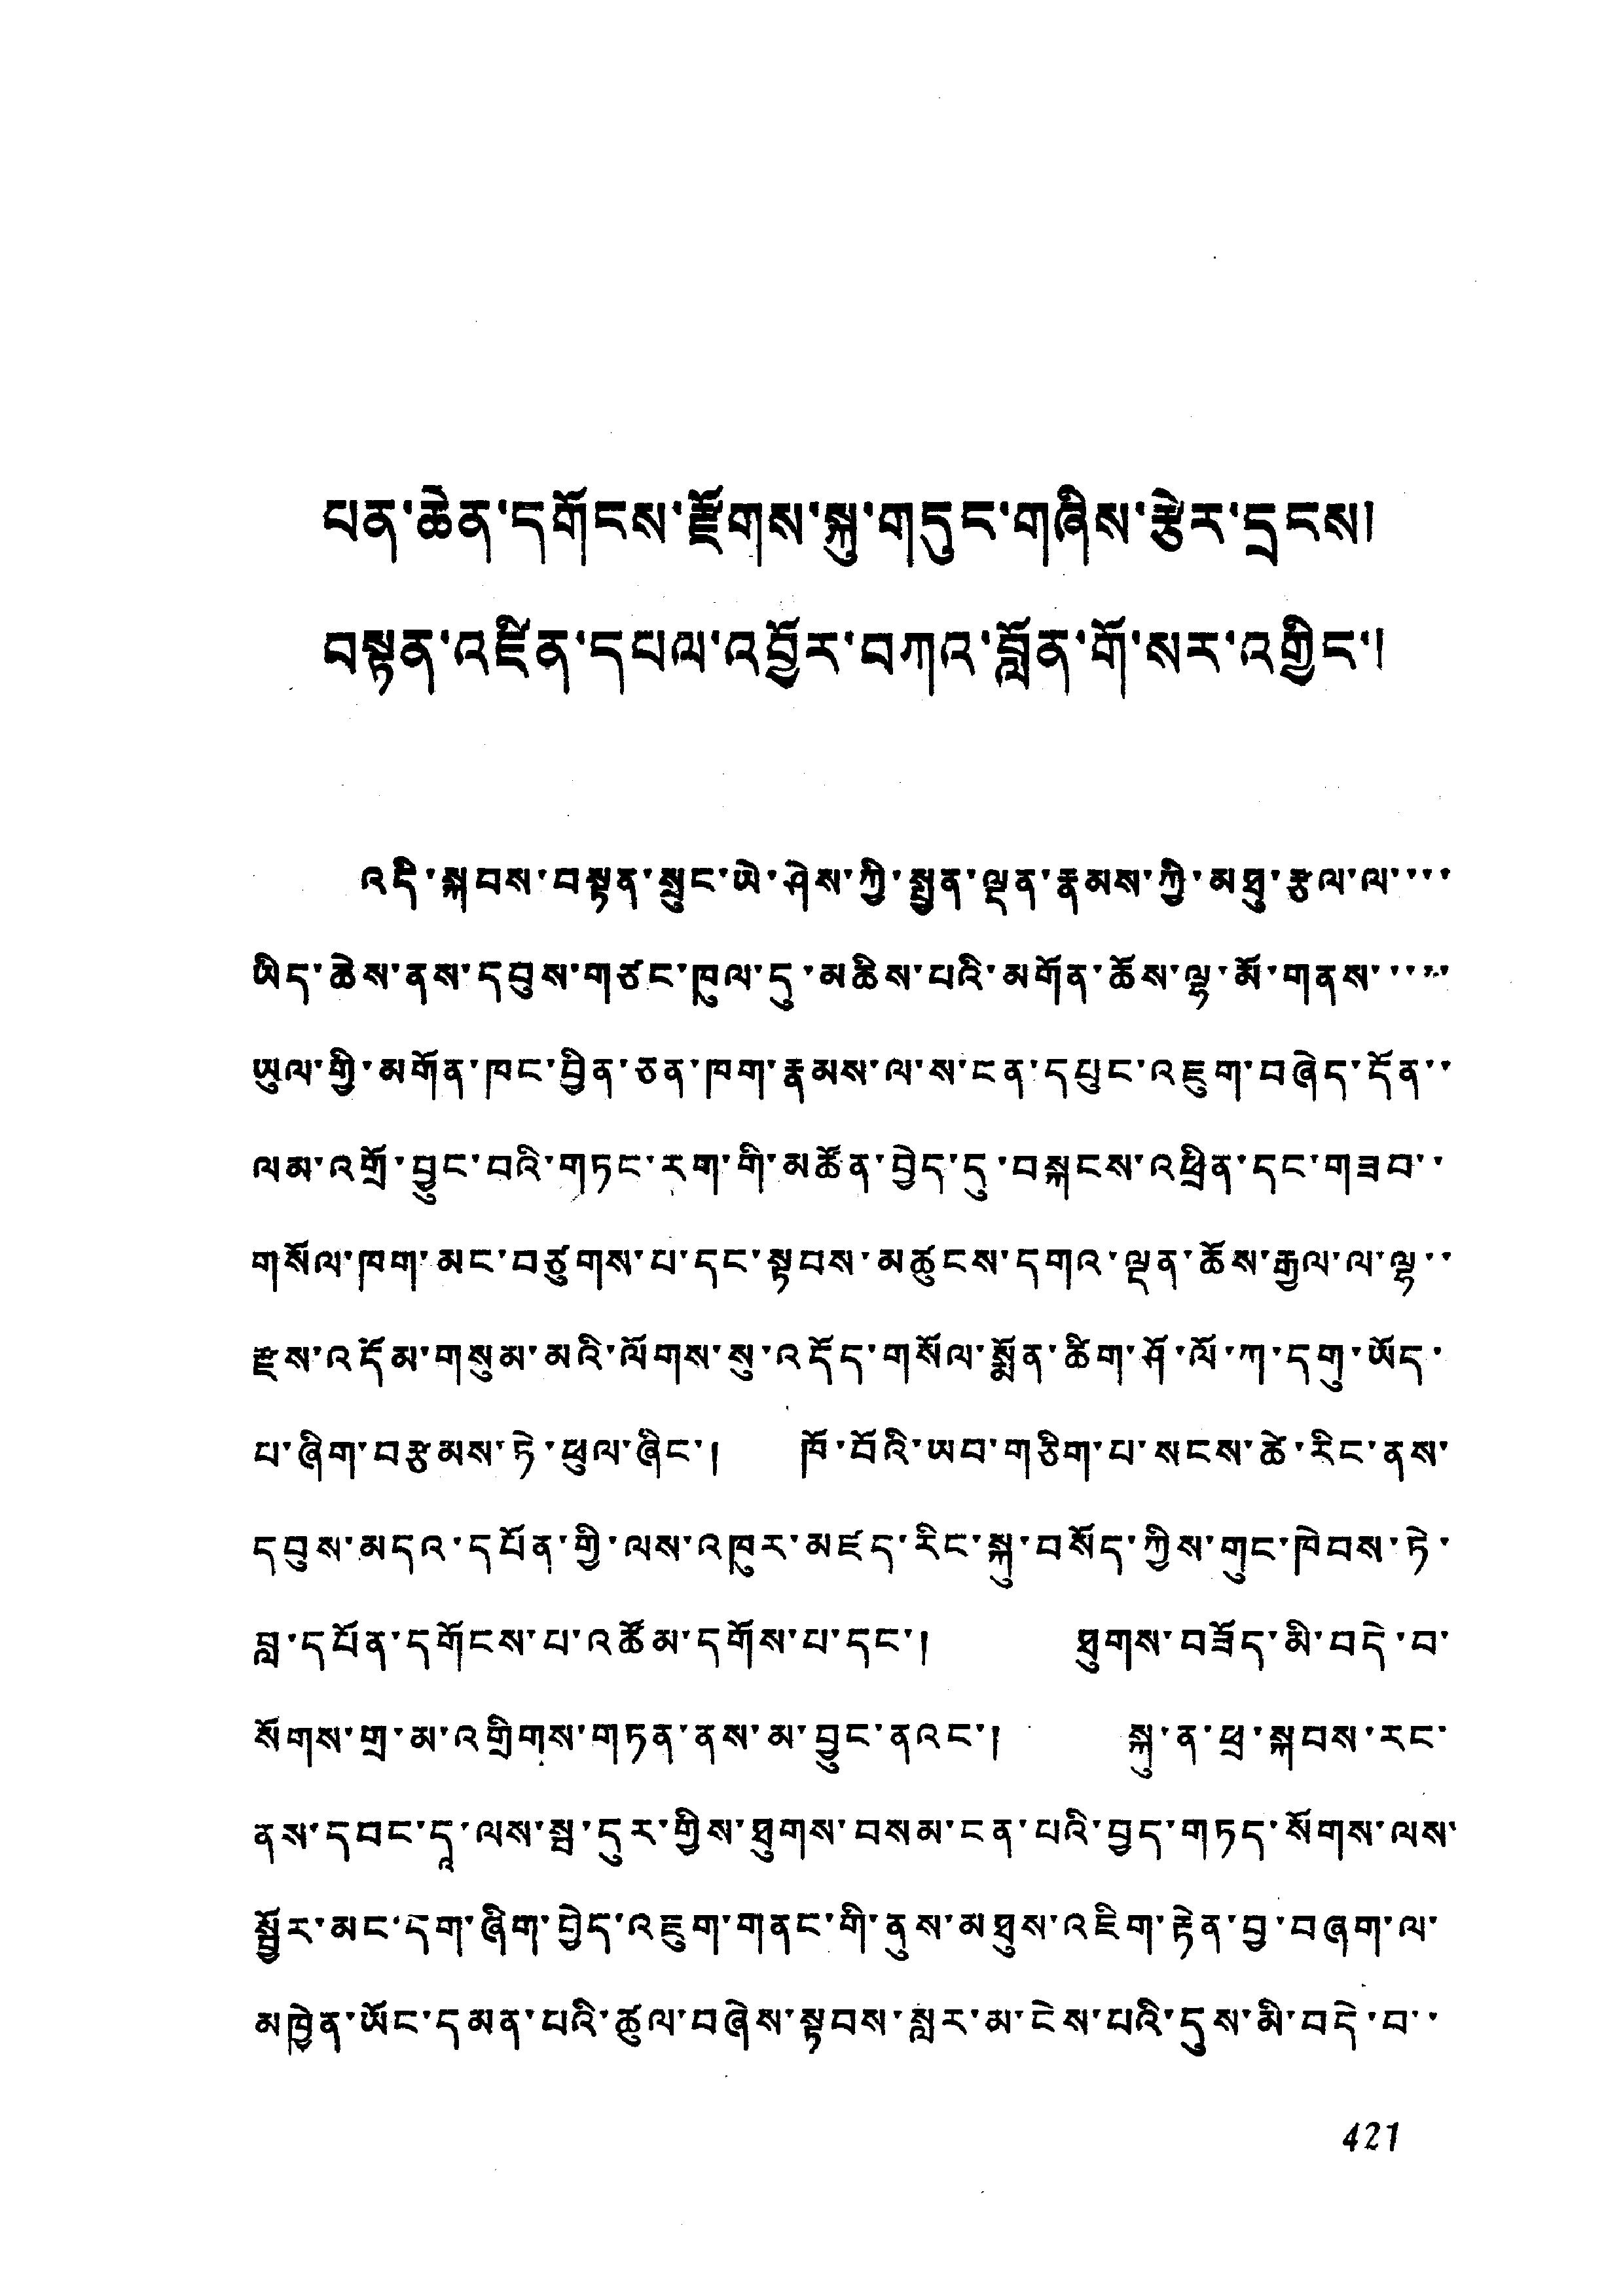པཎ་ཆེན་དགོངས་རྫོགས་སྐུ་གདུང་གཞིས་རྩེར་དྲངས།
བསྟན་འཛིན་དཔལ་འབྱོར་བཀའ་བློན་གོ་སར་འགྱིང་།
འདི་སྐབས་བསྟན་སྲུང་ཡེ་ཤེས་ཀྱི་སྤྱན་ལྡན་རྣམས་ཀྱི་མཐུ་རྩལ་ལ་་་་
ཡིད་ཆེས་ནས་དབུས་གཙང་ཁུལ་དུ་མཆིས་པའི་མགོན་ཆོས་ལྷ་མོ་གནས་་་་་
ཡུལ་གྱི་མགོན་ཁང་བྱིན་ཅན་ཁག་རྣམས་ལ་ས་ངན་དཔུང་འཇུག་བཞེད་དོན་་
ལམ་འགྲོ་བྱུང་བའི་གཏང་རག་གི་མཚོན་བྱེད་དུ་བསྐངས་འཕྲིན་དང་གཟབ་་
གསོལ་ཁག་མང་བཙུགས་པ་དང་སྟབས་མཚུངས་དགའ་ལྡན་ཆོས་རྒྱལ་ལ་ལྷ་་
རྫས་འདོམ་གསུམ་མའི་ལོགས་སུ་འདོད་གསོལ་སྨོན་ཚིག་ཤོ་ལོ་ཀ་དགུ་ཡོད་
པ་ཞིག་བརྩམས་ཏེ་ཕུལ་ཞིང་། ཁོ་བོའི་ཡབ་གཅིག་པ་སངས་ཚེ་རིང་ནས་
དབུས་མདའ་དཔོན་གྱི་ལས་འཁུར་མཛད་རིང་སྐུ་བསོད་ཀྱིས་གུང་ཁེབས་ཏེ་
བླ་དཔོན་དགོངས་པ་འཚོམ་དགོས་པ་དང་། ཐུགས་བཟོད་མི་བདེ་བ་
སོགས་གྲ་མ་འགྲིགས་གཏན་ནས་མ་བྱུང་ནའང་། སྐུ་ན་ཕྲ་སྐབས་རང་
ནས་དབང་དའ་ལས་སྦ་དུར་གྱིས་ཐུགས་བསམ་ངན་པའི་བྱད་གཏད་སོགས་ལས་
སྦྱོར་མང་དག་ཞིག་བྱེད་འཇུག་གནང་གི་ནུས་མཐུས་འཇིག་རྟེན་བྱ་བཞག་ལ་
མཁྱེན་ཡོང་དམན་པའི་ཚུལ་བཞེས་སྟབས་སླར་མ་ངེས་པའི་དུས་མི་བདེ་བ་་
421
